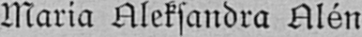Maria Aleksandra Al é n.
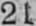21
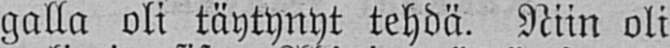galla oli täytynyt tehdä. Niin oli
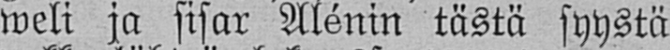weli ja sisar Alénin tästä syystä
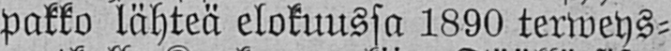pakko lähteä elokuussa 1890 terweys-
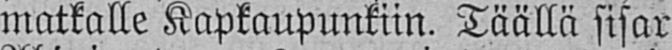matkalle Kapkaupunkiin. Täällä sisar
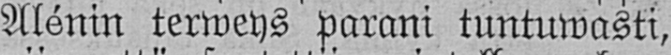Alénin terweys parani tuntuwasti,
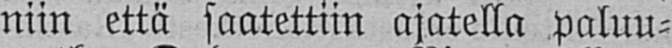niin että saatettiin ajatella paluu-
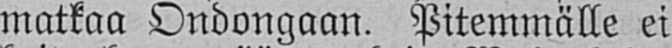matkaa Ondongaan. Pitemmälle ei
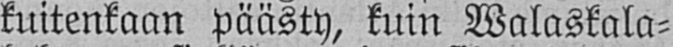kuitenkaan päästy, kuin Walaskala-
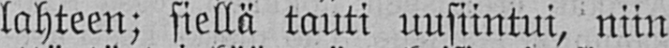lahteen; siellä tauti uusiintui, niin
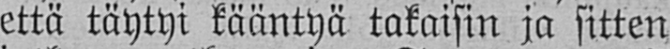että täytyi kääntyä takaisin ja sitten
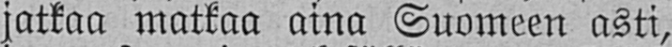jatkaa matkaa aina Suomeen asti,
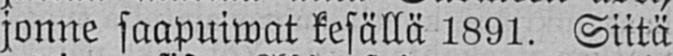jonne saapuiwat kesällä 1891. Siitä
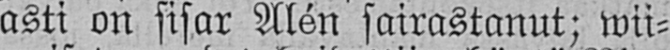asti on sisar Alén sairastanut; wii-
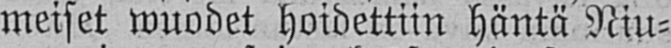meiset wuodet hoidettiin häntä Niu-
